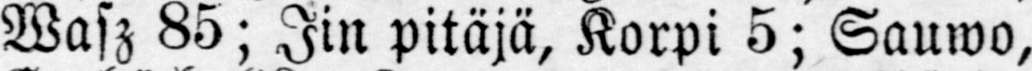Wasz 85; Iin pitäjä. Korpi 5; Sauwo,
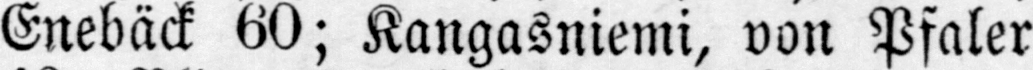Enebäck 60; Kangasniemi, von Pfaler
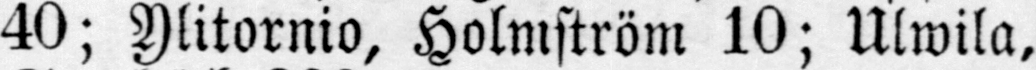40; Ylitornio, Holmström 10; Ulwila,
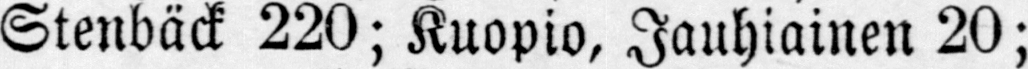Stenbäck 220; Kuopio, Jauhiainen 20;
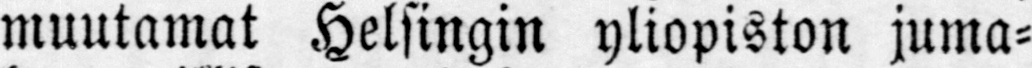muutamat Helsingin yliopiston juma-
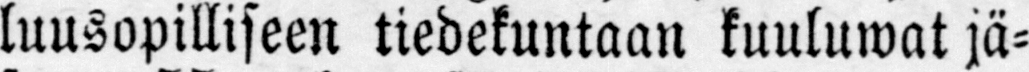luusopilliseen tiedekuntaan kuuluwat jä-
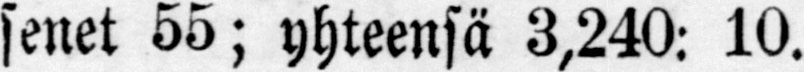senet 55; yhteensä 3,240: 10.
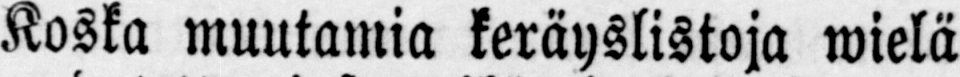Koska muutamia keräyslistoja wielä
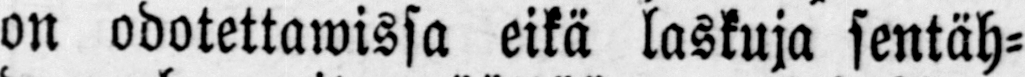on odotettawissa eikä laskuja sentäh-
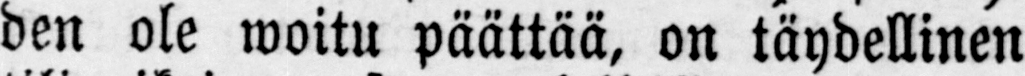den ole woitu päättää, on täydellinen
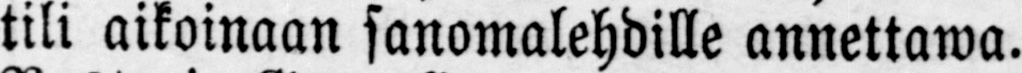tili aikoinaan sanomalehdille annettawa.
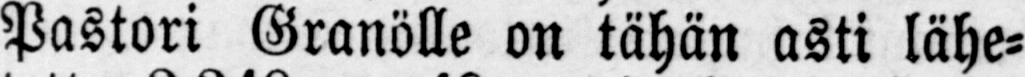Pastori Granölle on tähän asti lähe-
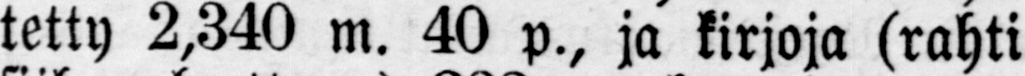tetty 2,340 m. 40 p., ja kirjoja (rahti
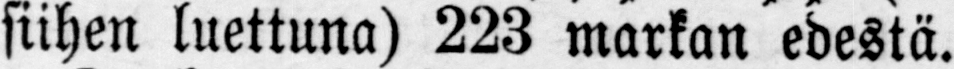siihen luettuna) 223 markan edestä.
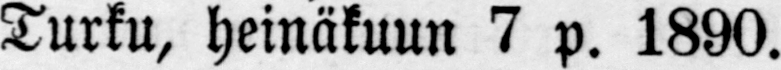Turku, heinäkuun 7 p. 1890.
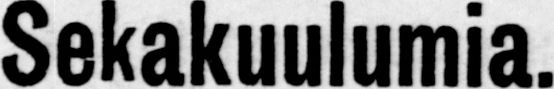Sekakuulumia.
